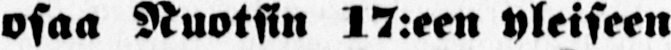osaa Ruotsin I7:een yleiseen
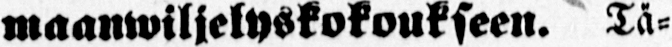maanwiljelyskokoukseen. Tä-
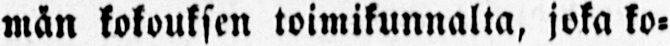män kokouksen toimikunnalta, joka ko-
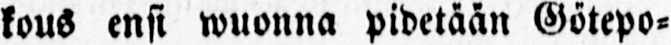kous ensi wuonna pidetään Götepo-
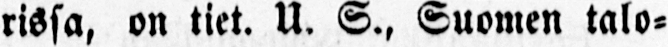rissa, on tiet. U. S., Suomen talo-
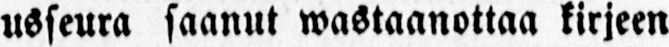usseura saanut wastaanottaa kirjeen
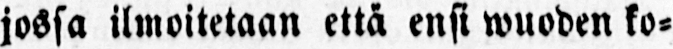jossa ilmoitetaan että ensi wuoden ko-
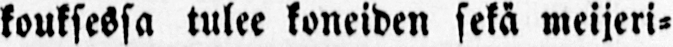kouksessa tulee koneiden sekä meijeri-
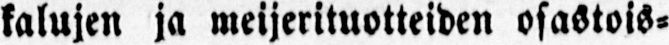kalujen ja meijerituotteiden osastois-
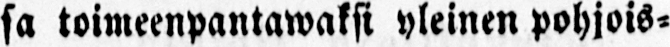sa toimeenpantawaksi yleinen pohjois-
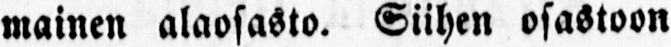mainen alaosasto. Siihen osastoon
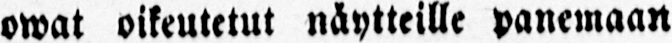owat oikeutetut näytteille panemaan
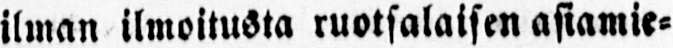ilman ilmoitusta ruotsalaisen asiamie-
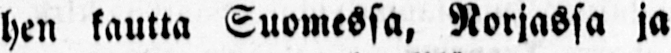hen kautta Suomessa, Norjassa ja
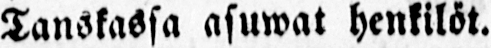Tanskassa asuwat henkilöt.
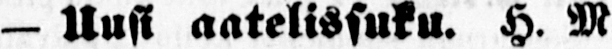— Uusi aatelissuku. H. M.
